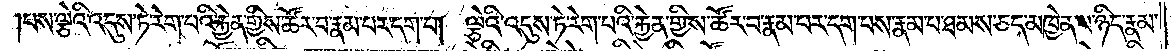པས་ལྕེའི་འདུས་ཏེ་རེག་པའི་རྐྱེན་གྱིས་ཚོར་བ་རྣམ་པར་དག་པ། ལྕེའི་འདུས་ཏེ་རེག་པའི་རྐྱེན་གྱིས་ཚོར་བ་རྣམ་པར་དག་པས་རྣམ་པ་ཐམས་ཅད་མཁྱེན་པ་ཉིད་རྣམ་
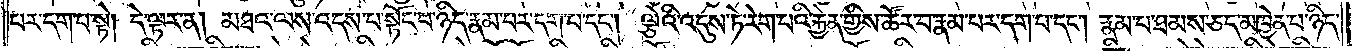པར་དག་པ་སྟེ། དེ་ལྟར་ན། མཐའ་ལས་འདས་པ་སྟོང་པ་ཉིད་རྣམ་པར་དག་པ་དང༌། ལྕེའི་འདུས་ཏེ་རེག་པའི་རྐྱེན་གྱིས་ཚོར་བ་རྣམ་པར་དག་པ་དང༌། རྣམ་པ་ཐམས་ཅད་མཁྱེན་པ་ཉིད་
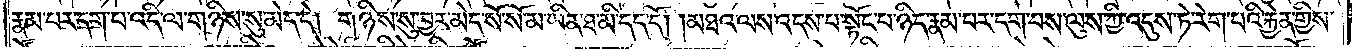རྣམ་པར་དག་པ་འདི་ལ་གཉིས་སུ་མེད་དེ། གཉིས་སུ་བྱར་མེད་སོ་སོ་མ་ཡིན་ཐ་མི་དད་དོ། །མཐའ་ལས་འདས་པ་སྟོང་པ་ཉིད་རྣམ་པར་དག་པས་ལུས་ཀྱི་འདུས་ཏེ་རེག་པའི་རྐྱེན་གྱིས་
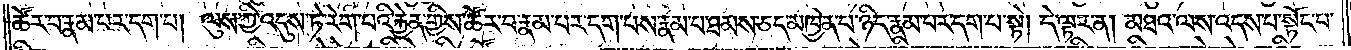ཚོར་བ་རྣམ་པར་དག་པ། ལུས་ཀྱི་འདུས་ཏེ་རེག་པའི་རྐྱེན་གྱིས་ཚོར་བ་རྣམ་པར་དག་པས་རྣམ་པ་ཐམས་ཅད་མཁྱེན་པ་ཉིད་རྣམ་པར་དག་པ་སྟེ། དེ་ལྟར་ན། མཐའ་ལས་འདས་པ་སྟོང་པ་
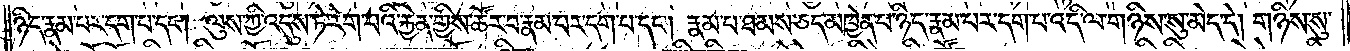ཉིད་རྣམ་པར་དག་པ་དང༌། ལུས་ཀྱི་འདུས་ཏེ་རེག་པའི་རྐྱེན་གྱིས་ཚོར་བ་རྣམ་པར་དག་པ་དང༌། རྣམ་པ་ཐམས་ཅད་མཁྱེན་པ་ཉིད་རྣམ་པར་དག་པ་འདི་ལ་གཉིས་སུ་མེད་དེ། གཉིས་སུ་
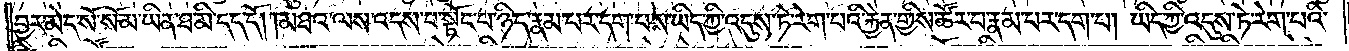བྱར་མེད་སོ་སོ་མ་ཡིན་ཐ་མི་དད་དོ། །མཐའ་ལས་འདས་པ་སྟོང་པ་ཉིད་རྣམ་པར་དག་པས་ཡིད་ཀྱི་འདུས་ཏེ་རེག་པའི་རྐྱེན་གྱིས་ཚོར་བ་རྣམ་པར་དག་པ། ཡིད་ཀྱི་འདུས་ཏེ་རེག་པའི་
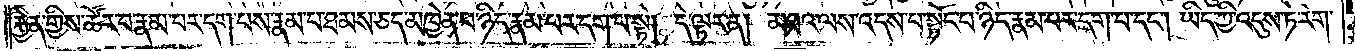རྐྱེན་གྱིས་ཚོར་བ་རྣམ་པར་དག་པས་རྣམ་པ་ཐམས་ཅད་མཁྱེན་པ་ཉིད་རྣམ་པར་དག་པ་སྟེ། དེ་ལྟར་ན། མཐའ་ལས་འདས་པ་སྟོང་པ་ཉིད་རྣམ་པར་དག་པ་དང༌། ཡིད་ཀྱི་འདུས་ཏེ་རེག་
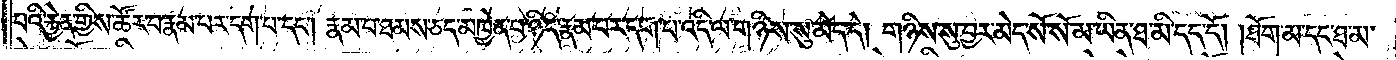པའི་རྐྱེན་གྱིས་ཚོར་བ་རྣམ་པར་དག་པ་དང༌། རྣམ་པ་ཐམས་ཅད་མཁྱེན་པ་ཉིད་རྣམ་པར་དག་པ་འདི་ལ་གཉིས་སུ་མེད་དེ། གཉིས་སུ་བྱར་མེད་སོ་སོ་མ་ཡིན་ཐ་མི་དད་དོ། །ཐོག་མ་དང་ཐ་མ་
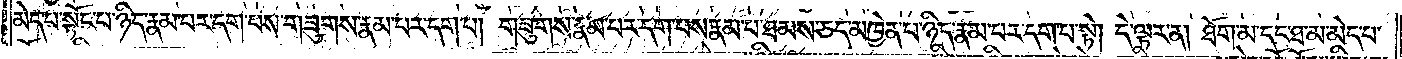མེད་པ་སྟོང་པ་ཉིད་རྣམ་པར་དག་པས་གཟུགས་རྣམ་པར་དག་པ། གཟུགས་རྣམ་པར་དག་པས་རྣམ་པ་ཐམས་ཅད་མཁྱེན་པ་ཉིད་རྣམ་པར་དག་པ་སྟེ། དེ་ལྟར་ན། ཐོག་མ་དང་ཐ་མ་མེད་པ་
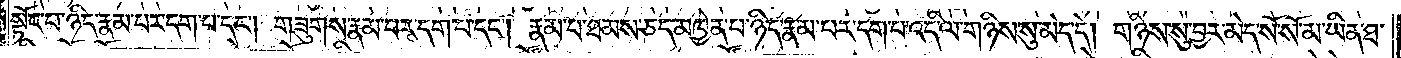སྟོང་པ་ཉིད་རྣམ་པར་དག་པ་དང༌། གཟུགས་རྣམ་པར་དག་པ་དང༌། རྣམ་པ་ཐམས་ཅད་མཁྱེན་པ་ཉིད་རྣམ་པར་དག་པ་འདི་ལ་གཉིས་སུ་མེད་དེ། གཉིས་སུ་བྱར་མེད་སོ་སོ་མ་ཡིན་ཐ་
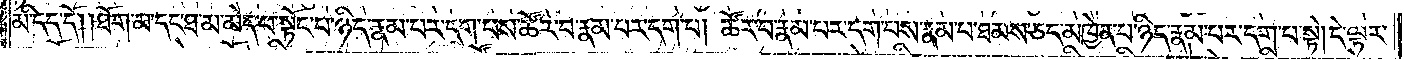མི་དད་དོ། །ཐོག་མ་དང་ཐ་མ་མེད་པ་སྟོང་པ་ཉིད་རྣམ་པར་དག་པས་ཚོར་བ་རྣམ་པར་དག་པ། ཚོར་བ་རྣམ་པར་དག་པས་རྣམ་པ་ཐམས་ཅད་མཁྱེན་པ་ཉིད་རྣམ་པར་དག་པ་སྟེ། དེ་ལྟར་
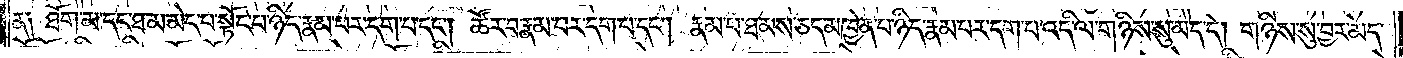ན༑ ཐོག་མ་དང་ཐ་མ་མེད་པ་སྟོང་པ་ཉིད་རྣམ་པར་དག་པ་དང༌། ཚོར་བ་རྣམ་པར་དག་པ་དང༌། རྣམ་པ་ཐམས་ཅད་མཁྱེན་པ་ཉིད་རྣམ་པར་དག་པ་འདི་ལ་གཉིས་སུ་མེད་དེ། གཉིས་སུ་བྱར་མེད་
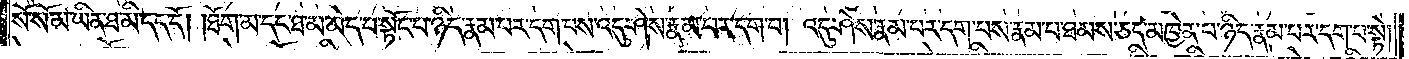སོ་སོ་མ་ཡིན་ཐ་མི་དད་དོ། །ཐོག་མ་དང་ཐ་མ་མེད་པ་སྟོང་པ་ཉིད་རྣམ་པར་དག་པས་འདུ་ཤེས་རྣམ་པར་དག་པ། འདུ་ཤེས་རྣམ་པར་དག་པས་རྣམ་པ་ཐམས་ཅད་མཁྱེན་པ་ཉིད་རྣམ་པར་དག་པ་སྟེ།
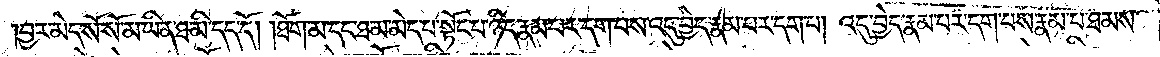བྱར་མེད་སོ་སོ་མ་ཡིན་ཐ་མི་དད་དོ། །ཐོག་མ་དང་ཐ་མ་མེད་པ་སྟོང་པ་ཉིད་རྣམ་པར་དག་པས་འདུ་བྱེད་རྣམ་པར་དག་པ། འདུ་བྱེད་རྣམ་པར་དག་པས་རྣམ་པ་ཐམས་
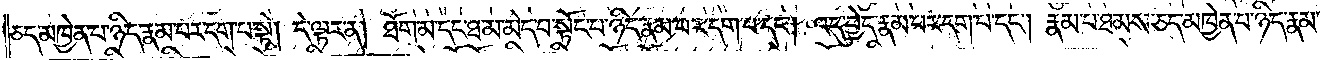ཅད་མཁྱེན་པ་ཉིད་རྣམ་པར་དག་པ་སྟེ། དེ་ལྟར་ན། ཐོག་མ་དང་ཐ་མ་མེད་པ་སྟོང་པ་ཉིད་རྣམ་པར་དག་པ་དང༌། འདུ་བྱེད་རྣམ་པར་དག་པ་དང༌། རྣམ་པ་ཐམས་ཅད་མཁྱེན་པ་ཉིད་རྣམ་
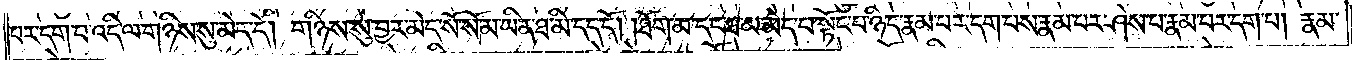པར་དག་པ་འདི་ལ་གཉིས་སུ་མེད་དེ། གཉིས་སུ་བྱར་མེད་སོ་སོ་མ་ཡིན་ཐ་མི་དད་དོ། །ཐོག་མ་དང་ཐ་མ་མེད་པ་སྟོང་པ་ཉིད་རྣམ་པར་དག་པས་རྣམ་པར་ཤེས་པ་རྣམ་པར་དག་པ། རྣམ་
